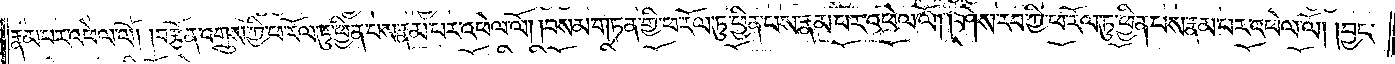རྣམ་པར་འཕེལ་ལོ། །བརྩོན་འགྲུས་ཀྱི་ཕ་རོལ་ཏུ་ཕྱིན་པས་རྣམ་པར་འཕེལ་ལོ། །བསམ་གཏན་གྱི་ཕ་རོལ་ཏུ་ཕྱིན་པས་རྣམ་པར་འཕེལ་ལོ། །ཤེས་རབ་ཀྱི་ཕ་རོལ་ཏུ་ཕྱིན་པས་རྣམ་པར་འཕེལ་ལོ། །བྱང་
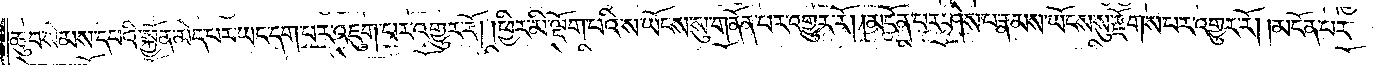ཆུབ་སེམས་དཔའི་སྐྱོན་མེད་པར་ཡང་དག་པར་འཇུག་པར་འགྱུར་རོ། །ཕྱིར་མི་ལྡོག་པའི་ས་ཡོངས་སུ་གནོན་པར་འགྱུར་རོ། །མངོན་པར་ཤེས་པ་རྣམས་ཡོངས་སུ་རྫོགས་པར་འགྱུར་རོ། །མངོན་པར་
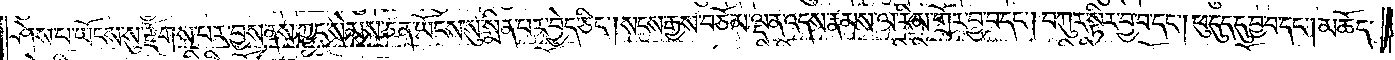ཤེས་པ་ཡོངས་སུ་རྫོགས་པར་བྱས་ནས་ཀྱང་སེམས་ཅན་ཡོངས་སུ་སྨིན་པར་བྱེད་ཅིང༌། སངས་རྒྱས་བཅོམ་ལྡན་འདས་རྣམས་ལ་རིམ་གྲོར་བྱ་བ་དང༌། བཀུར་སྟིར་བྱ་བ་དང༌། ཕུ་དུད་དུ་བྱ་བ་དང༌། མཆོད་
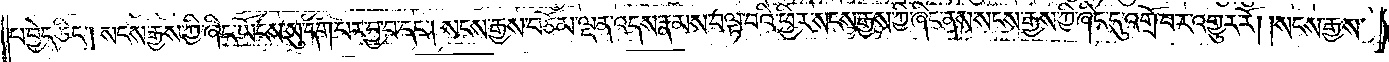པ་བྱེད་ཅིང༌། སངས་རྒྱས་ཀྱི་ཞིང་ཡོངས་སུ་དག་པར་བྱ་བ་དང༌། སངས་རྒྱས་བཅོམ་ལྡན་འདས་རྣམས་བལྟ་བའི་ཕྱིར་སངས་རྒྱས་ཀྱི་ཞིང་ནས་སངས་རྒྱས་ཀྱི་ཞིང་དུ་འགྲོ་བར་འགྱུར་རོ། །སངས་རྒྱས་
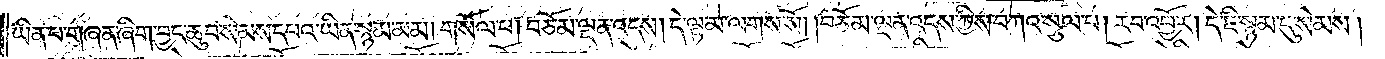ཡིན་པ་གཞན་ཞིག་བྱང་ཆུབ་སེམས་དཔའ་ཡིན་སྙམ་མམ། གསོལ་པ། བཅོམ་ལྡན་འདས། དེ་ལྟ་མ་ལགས་སོ། །བཅོམ་ལྡན་འདས་ཀྱིས་བཀའ་སྩལ་པ། རབ་འབྱོར། དེ་ཇི་སྙམ་དུ་སེམས།
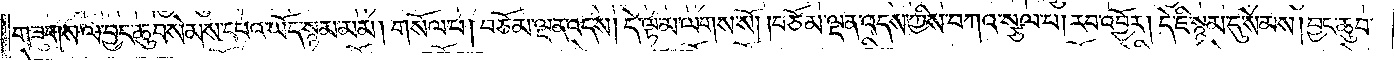གཟུགས་ལ་བྱང་ཆུབ་སེམས་དཔའ་ཡོད་སྙམ་མམ། གསོལ་པ། བཅོམ་ལྡན་འདས། དེ་ལྟ་མ་ལགས་སོ། །བཅོམ་ལྡན་འདས་ཀྱིས་བཀའ་སྩལ་པ། རབ་འབྱོར། དེ་ཇི་སྙམ་དུ་སེམས། བྱང་ཆུབ་
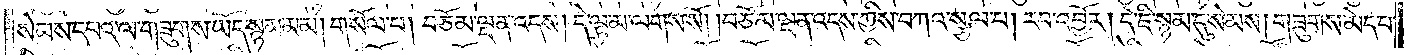སེམས་དཔའ་ལ་གཟུགས་ཡོད་སྙམ་མམ། གསོལ་པ། བཅོམ་ལྡན་འདས། དེ་ལྟ་མ་ལགས་སོ། །བཅོམ་ལྡན་འདས་ཀྱིས་བཀའ་སྩལ་པ། རབ་འབྱོར། དེ་ཇི་སྙམ་དུ་སེམས། གཟུགས་མེད་པ་
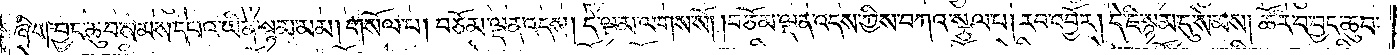ཞིག་བྱང་ཆུབ་སེམས་དཔའ་ཡིན་སྙམ་མམ། གསོལ་པ། བཅོམ་ལྡན་འདས། དེ་ལྟ་མ་ལགས་སོ། །བཅོམ་ལྡན་འདས་ཀྱིས་བཀའ་སྩལ་པ། རབ་འབྱོར། དེ་ཇི་སྙམ་དུ་སེམས། ཚོར་བ་བྱང་ཆུབ་
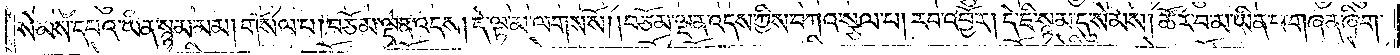སེམས་དཔའ་ཡིན་སྙམ་མམ། གསོལ་པ། བཅོམ་ལྡན་འདས། དེ་ལྟ་མ་ལགས་སོ། །བཅོམ་ལྡན་འདས་ཀྱིས་བཀའ་སྩལ་པ། རབ་འབྱོར། དེ་ཇི་སྙམ་དུ་སེམས། ཚོར་བ་མ་ཡིན་པ་གཞན་ཞིག་
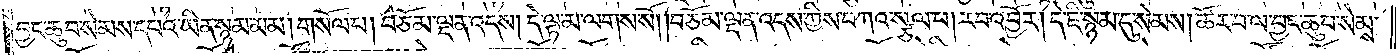བྱང་ཆུབ་སེམས་དཔའ་ཡིན་སྙམ་མམ། གསོལ་པ། བཅོམ་ལྡན་འདས། དེ་ལྟ་མ་ལགས་སོ། །བཅོམ་ལྡན་འདས་ཀྱིས་བཀའ་སྩལ་པ། རབ་འབྱོར། དེ་ཇི་སྙམ་དུ་སེམས། ཚོར་བ་ལ་བྱང་ཆུབ་སེམས་
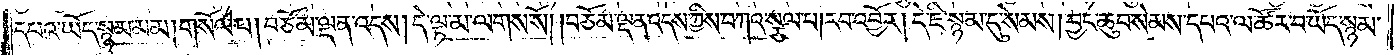དཔའ་ཡོད་སྙམ་མམ། གསོལ་པ། བཅོམ་ལྡན་འདས། དེ་ལྟ་མ་ལགས་སོ། །བཅོམ་ལྡན་འདས་ཀྱིས་བཀའ་སྩལ་པ། རབ་འབྱོར། དེ་ཇི་སྙམ་དུ་སེམས། བྱང་ཆུབ་སེམས་དཔའ་ལ་ཚོར་བ་ཡོད་སྙམ་
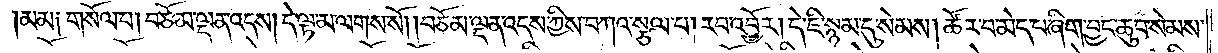མམ༑ གསོལ་བ། བཅོམ་ལྡན་འདས། དེ་ལྟ་མ་ལགས་སོ། །བཅོམ་ལྡན་འདས་ཀྱིས་བཀའ་སྩལ་པ། རབ་འབྱོར། དེ་ཇི་སྙམ་དུ་སེམས། ཚོར་བ་མེད་པ་ཞིག་བྱང་ཆུབ་སེམས་
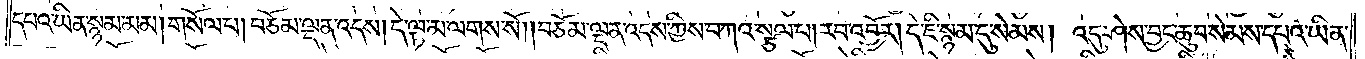དཔའ་ཡིན་སྙམ་མམ། གསོལ་པ། བཅོམ་ལྡན་འདས། དེ་ལྟ་མ་ལགས་སོ། །བཅོམ་ལྡན་འདས་ཀྱིས་བཀའ་སྩལ་པ། རབ་འབྱོར། དེ་ཇི་སྙམ་དུ་སེམས། འདུ་ཤེས་བྱང་ཆུབ་སེམས་དཔའ་ཡིན་
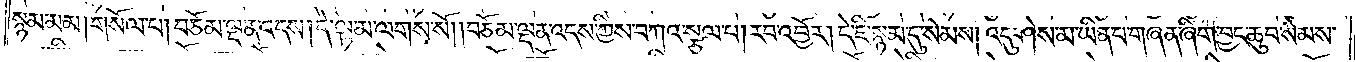སྙམ་མམ། གསོལ་པ། བཅོམ་ལྡན་འདས། དེ་ལྟ་མ་ལགས་སོ། །བཅོམ་ལྡན་འདས་ཀྱིས་བཀའ་སྩལ་པ། རབ་འབྱོར། དེ་ཇི་སྙམ་དུ་སེམས། འདུ་ཤེས་མ་ཡིན་པ་གཞན་ཞིག་བྱང་ཆུབ་སེམས་
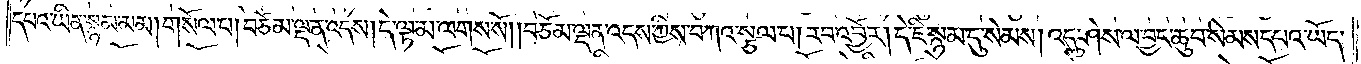དཔའ་ཡིན་སྙམ་མམ། གསོལ་པ། བཅོམ་ལྡན་འདས། དེ་ལྟ་མ་ལགས་སོ། །བཅོམ་ལྡན་འདས་ཀྱིས་བཀའ་སྩལ་པ། རབ་འབྱོར། དེ་ཇི་སྙམ་དུ་སེམས། འདུ་ཤེས་ལ་བྱང་ཆུབ་སེམས་དཔའ་ཡོད་
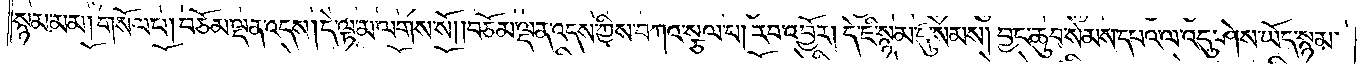སྙམ་མམ། གསོལ་པ། བཅོམ་ལྡན་འདས། དེ་ལྟ་མ་ལགས་སོ། །བཅོམ་ལྡན་འདས་ཀྱིས་བཀའ་སྩལ་པ། རབ་འབྱོར། དེ་ཇི་སྙམ་དུ་སེམས། བྱང་ཆུབ་སེམས་དཔའ་ལ་འདུ་ཤེས་ཡོད་སྙམ་
